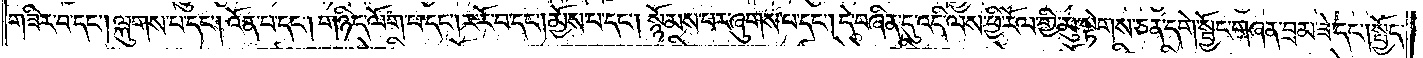གཟིར་བ་དང༌། ལྐུགས་པ་དང༌། འོན་པ་དང༌། གཉིད་ལོག་པ་དང༌། ར་རོ་བ་དང༌། མྱོས་པ་དང༌། སྙོམས་པར་ཞུགས་པ་དང༌། དེ་བཞིན་དུ་འདི་ལས་ཕྱི་རོལ་གྱི་མུ་སྟེགས་ཅན་དགེ་སྦྱོང་གཞན་བྲམ་ཟེ་དང༌། སྤྱོད་
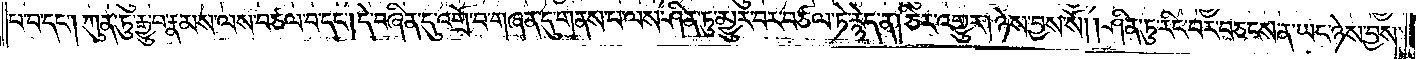པ་བ་དང༌། ཀུན་ཏུ་རྒྱུ་བ་རྣམས་ལས་བཙལ་བ་དང༌། དེ་བཞིན་དུ་འགྲོ་བ་གཞན་དུ་གནས་པ་ལས་ཤིན་ཏུ་མྱུར་བར་བཙལ་ཏེ་རྙེད་ན། ཅིར་འགྱུར། ཉེས་བྱས་སོ། །ཤིན་ཏུ་རིང་བར་བཅངས་ན་ཡང་ཉེས་བྱས་
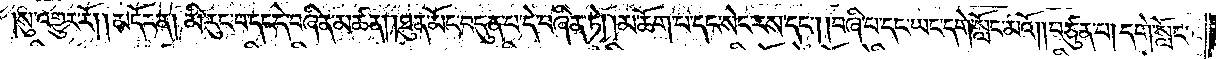སུ་འགྱུར་རོ། །མདོར་ན། མི་རུང་བ་དང་དེ་བཞིན་མཚན། །ཐུན་མོང་བདུན་པ་དེ་བཞིན་ཏེ། །མཆོག་པ་དང་སེང་རས་དང༌། །བཞི་པ་དང་ཡང་དགེ་སློང་མའོ། །བཙུན་པ། དགེ་སློང་
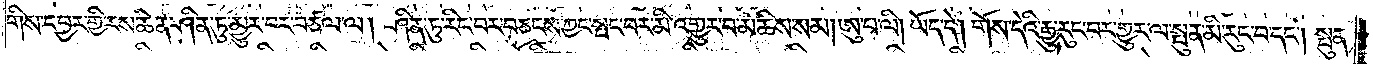གིས་དབྱར་གྱི་རས་ཆེན་ཤིན་ཏུ་མྱུར་བར་བཙལ་ལ། ཤིན་ཏུ་རིང་བར་བཅངས་ཀྱང་སྤང་བར་མི་འགྱུར་བ་མཆིས་སམ། ཨུ་པ་ལི། ཡོད་དེ། གོས་དེའི་རྒྱུ་རུང་བར་གྱུར་ལ་སྤུན་མི་རུང་བ་དང༌། སྤུན་
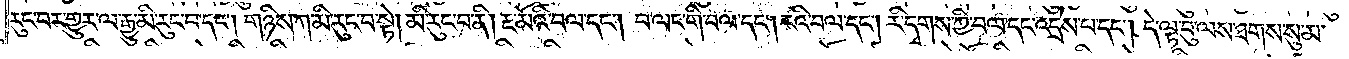རུང་བར་གྱུར་ལ་རྒྱུ་མི་རུང་བ་དང༌། གཉིས་ཀ་མི་རུང་བ་སྟེ། མི་རུང་བ་ནི། རྔ་མོའི་བལ་དང༌། བ་ལང་གི་བལ་དང༌། རའི་བལ་དང༌། རི་དྭགས་ཀྱི་བལ་དང་འདྲེས་པ་དང༌། དེ་ལྟ་བུ་ལས་ཐགས་སུ་མ་
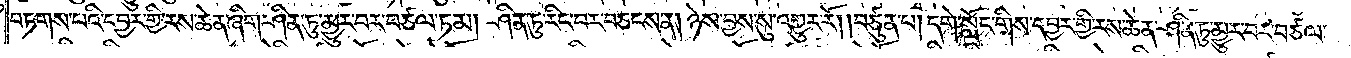བཏགས་པའི་དབྱར་གྱི་རས་ཆེན་ཞིག་ཤིན་ཏུ་མྱུར་བར་བཙལ་ཏམ། ཤིན་ཏུ་རིང་བར་བཅངས་ན། ཉེས་བྱས་སུ་འགྱུར་རོ། །བཙུན་པ། དགེ་སློང་གིས་དབྱར་གྱི་རས་ཆེན་ཤིན་ཏུ་མྱུར་བར་བཙལ་
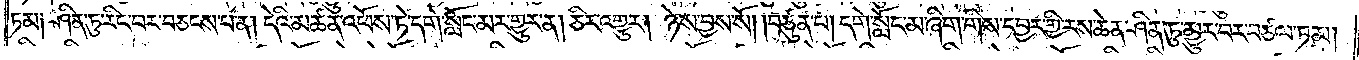ཏམ༑ ཤིན་ཏུ་རིང་བར་བཅངས་པ་ན། དེའི་མཚན་འཕོས་ཏེ་དགེ་སློང་མར་གྱུར་ན། ཅིར་འགྱུར། ཉེས་བྱས་སོ། །བཙུན་པ། དགེ་སློང་མ་ཞིག་གིས་དབྱར་གྱི་རས་ཆེན་ཤིན་ཏུ་མྱུར་བར་བཙལ་ཏམ།
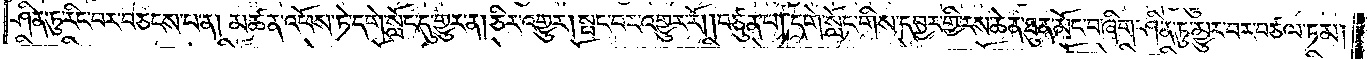ཤིན་ཏུ་རིང་བར་བཅངས་པ་ན། མཚན་འཕོས་ཏེ་དགེ་སློང་དུ་གྱུར་ན། ཅིར་འགྱུར། སྤང་བར་འགྱུར་རོ། །བཙུན་པ། དགེ་སློང་གིས་དབྱར་གྱི་རས་ཆེན་ཐུན་མོང་བ་ཞིག་ཤིན་ཏུ་མྱུར་བར་བཙལ་ཏམ།
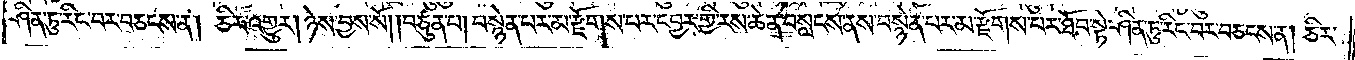ཤིན་ཏུ་རིང་བར་བཅངས་ན། ཅིར་འགྱུར། ཉེས་བྱས་སོ། །བཙུན་པ། བསྙེན་པར་མ་རྫོགས་པར་དབྱར་གྱི་རས་ཆེན་བསླངས་ནས་བསྙེན་པར་མ་རྫོགས་པར་ཐོབ་སྟེ་ཤིན་ཏུ་རིང་བར་བཅངས་ན། ཅིར་
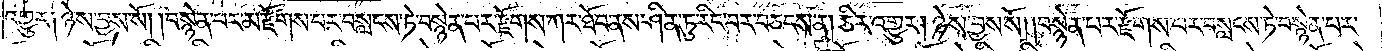འགྱུར། ཉེས་བྱས་སོ། །བསྙེན་པར་མ་རྫོགས་པར་བསླངས་ཏེ་བསྙེན་པར་རྫོགས་ཀར་ཐོབ་ནས་ཤིན་ཏུ་རིང་བར་བཅངས་ན། ཅིར་འགྱུར། ཉེས་བྱས་སོ། །བསྙེན་པར་རྫོགས་པར་བསླངས་ཏེ་བསྙེན་པར་
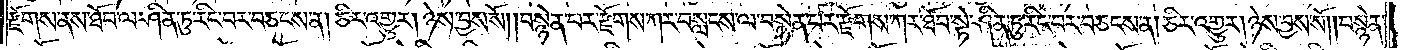རྫོགས་ནས་ཐོབ་ལ་ཤིན་ཏུ་རིང་བར་བཅངས་ན། ཅིར་འགྱུར། ཉེས་བྱས་སོ། །བསྙེན་པར་རྫོགས་ཀར་བསླངས་ལ་བསྙེན་པར་རྫོགས་ཀར་ཐོབ་སྟེ་ཤིན་ཏུ་རིང་བར་བཅངས་ན། ཅིར་འགྱུར། ཉེས་བྱས་སོ། །བསྙེན་
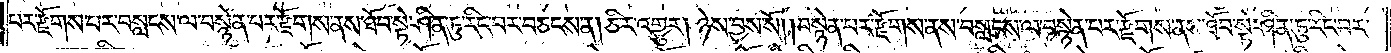པར་རྫོགས་པར་བསླངས་ལ་བསྙེན་པར་རྫོགས་ནས་ཐོབ་སྟེ་ཤིན་ཏུ་རིང་བར་བཅངས་ན། ཅིར་འགྱུར། ཉེས་བྱས་སོ། །བསྙེན་པར་རྫོགས་ནས་བསླངས་ལ་བསྙེན་པར་རྫོགས་ནས་ཐོབ་སྟེ་ཤིན་ཏུ་རིང་བར་
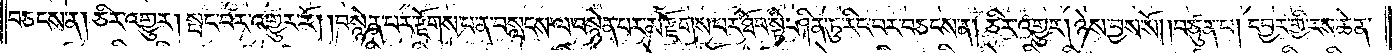བཅངས་ན། ཅིར་འགྱུར། སྤང་བར་འགྱུར་རོ། །བསྙེན་པར་རྫོགས་པ་ན་བསླངས་ལ་བསྙེན་པར་མ་རྫོགས་པར་ཐོབ་སྟེ་ཤིན་ཏུ་རིང་བར་བཅངས་ན། ཅིར་འགྱུར། ཉེས་བྱས་སོ། །བཙུན་པ། དབྱར་གྱི་རས་ཆེན་
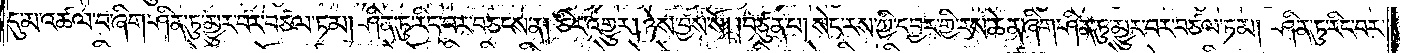དུ་མ་འཚལ་བ་ཞིག་ཤིན་ཏུ་མྱུར་བར་བཙལ་ཏམ། ཤིན་ཏུ་རིང་བར་བཅངས་ན། ཅིར་འགྱུར། ཉེས་བྱས་སོ། །བཙུན་པ། སེང་རས་ཀྱི་དབྱར་གྱི་རས་ཆེན་ཞིག་ཤིན་ཏུ་མྱུར་བར་བཙལ་ཏམ། ཤིན་ཏུ་རིང་བར་
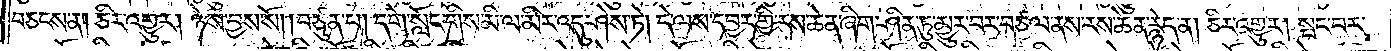བཅངས་ན། ཅིར་འགྱུར། ཉེས་བྱས་སོ། །བཙུན་པ། དགེ་སློང་གིས་མི་ལ་མིར་འདུ་ཤེས་ཏེ། དེ་ལས་དབྱར་གྱི་རས་ཆེན་ཞིག་ཤིན་ཏུ་མྱུར་བར་བཙལ་ནས་རས་ཆེན་རྙེད་ན། ཅིར་འགྱུར། སྤང་བར་
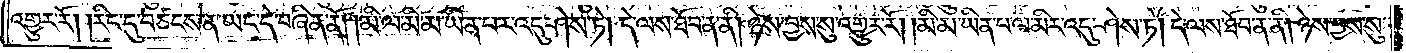འགྱུར་རོ། །རིང་དུ་བཙངས་ན་ཡང་དེ་བཞིན་ནོ། །མི་ལ་མི་མ་ཡིན་པར་འདུ་ཤེས་ཏེ། དེ་ལས་ཐོབ་ན་ནི། ཉེས་བྱས་སུ་འགྱུར་རོ། །མི་མ་ཡིན་པ་ལ་མིར་འདུ་ཤེས་ཏེ། དེ་ལས་ཐོབ་ན་ནི། ཉེས་བྱས་སུ་
